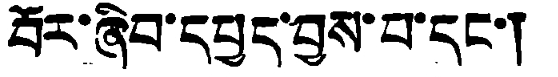བོར་ཞིབ་དཔྱད་བྱས་པ་དང་།
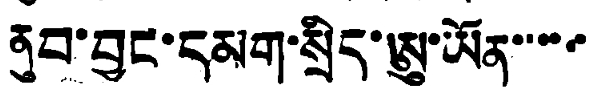ནུབ་བྱང་དམག་སྲིད་ཨུ་ཡོན་་་་་
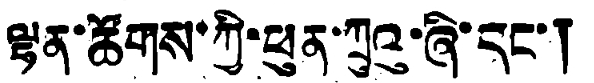ལྷན་ཚོགས་ཀྱི་ཕུན་ཀྲུའུ་ཞི་དང་།
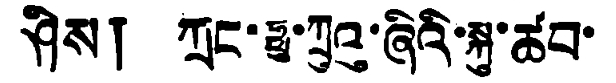ཤིས། ཀྲང་ཧྥུ་ཀྲུའུ་ཞིའི་སྐུ་ཚབ་
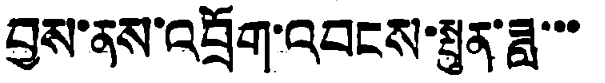བྱས་ནས་འབྲོག་འབངས་སྤུན་ཟླ་་་
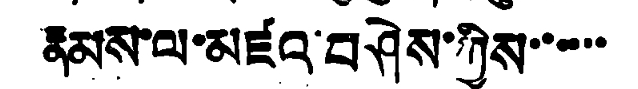རྣམས་ལ་མཛའ་བཤེས་ཀྱིས་་་་་
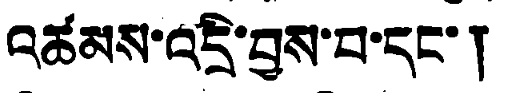འཚམས་འདྲི་བྱས་པ་དང་།
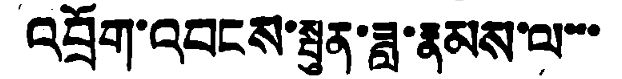འབྲོག་འབངས་སྤུན་ཟླ་རྣམས་ལ་་་་་་
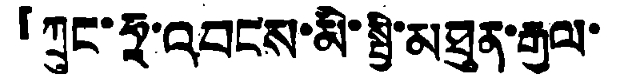『ཀྲུང་ཧཱ་འབངས་མི་སྤྱི་མཐུན་རྒྱལ་
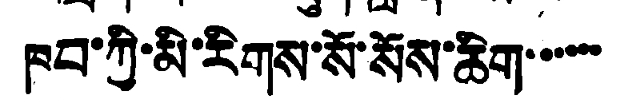ཁབ་ཀྱི་མི་རིགས་སོ་སོས་ཆིག་་་་་
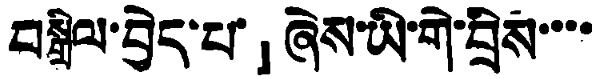བསྒྲིལ་བྱེད་པ་』ཞེས་ཡི་གེ་བྲིས་་་་
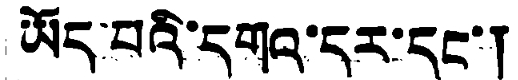ཡོད་པའི་དགའ་དར་དང་།
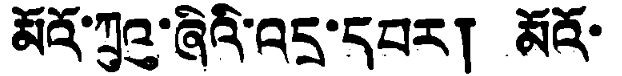མོའོ་ཀྲུའུ་ཞིའི་འདྲ་དབར། མོའོ་
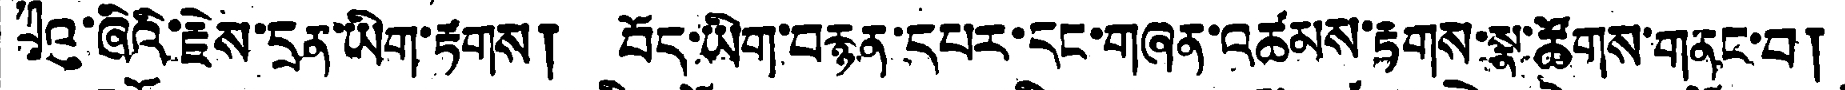ཀྲུའུ་ཞིའི་རྗེས་དྲན་ཡིག་རྟགས། བོད་ཡིག་བརྙན་དཔར་དང་གཞན་འཚམས་རྟགས་སྣ་ཚོགས་གནང་བ།
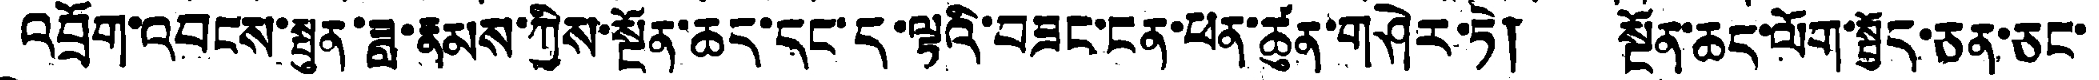འབྲོག་འབངས་སྤུན་ཟླ་རྣམས་ཀྱིས་སྔོན་ཆད་དང་ད་ལྟའི་བཟང་ངན་ཕན་ཚུན་གཤེར་ཏེ། སྔོན་ཆད་ལོག་སྤྱོད་ཅན་ཅང་
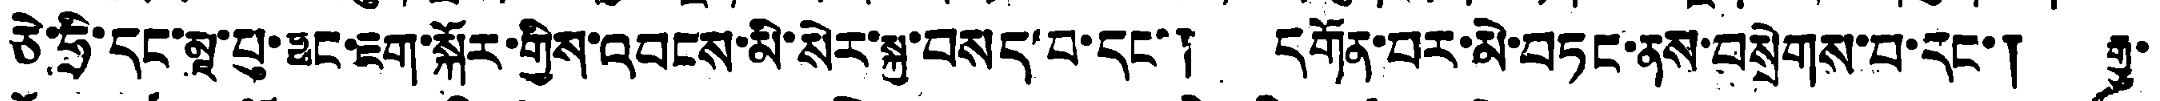ཅེ་ཧྲི་དང་མཱ་པུ་ཧྥང་ཇག་སྐོར་གྱིས་འབངས་མི་སེར་སྐྱ་བསད་བ་དང་། དགོན་བར་མེ་བཏང་ནས་བསྲེགས་པ་དང་། རྒྱུ་
